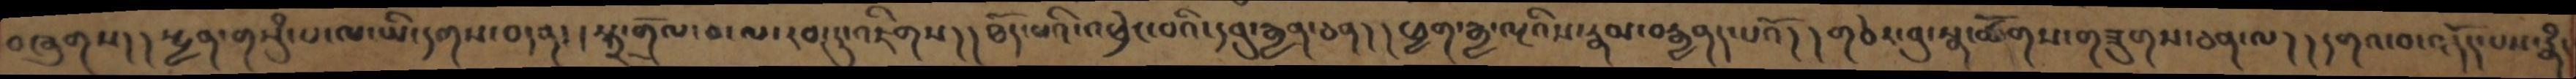བཞུགས། །སྤྱན་གསུཾ་པ་ལ་ཡི་དགས་བདན། །སྐྲ་གྲོལ་བ་ལ་རབ་ཏུ་འཇིགས།། ཐོད་པའི་འཕྲེང་བའི་དབུ་རྒྱན་ཅན། ། ཕྱག་རྒྱ་ལྔའིས་རྣམ་བརྒྱནད་པའོ། ། གཅེར་བུ་སྣ་ཚོགས་གཟུགས་ཅན་ལ། །དགའ་བ་འདོད་པས་རྣཾ་
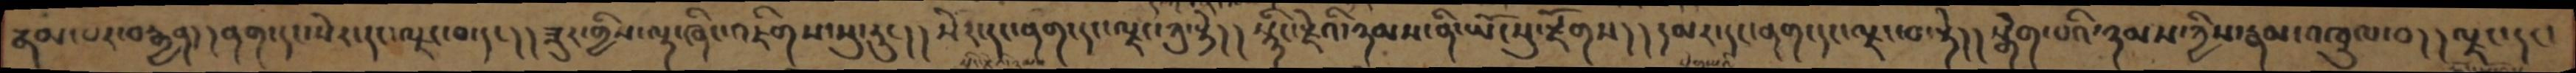རྣམ་པར་བརྒྱན། །ནག་དང་སེར་དང་ལྗང་བ་དང། །ཟུར་གྱིས་ལྟ་ཞིང་འཇིགས་སུ་རུང། །སེར་དང་ནག་དང་ལྗང་ཀུ་སྟེ། །སྙིང་རྗེའི་ཉམས་ནི་ཡོངསུ་རྫོགས། །དམར་དང་ནག་དང་ལྗང་བ་སྟེ། །སྒེག་པའི་ཉམས་ཀྱིས་རྣམ་འཁྲུལ་བ། །ལྗང་དང་
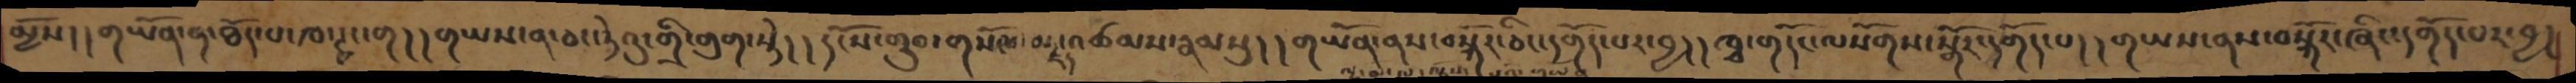མྱོས། །གཡོན་ན་ཐོད་པ་ཁ་ཊྭང་ག། །གཡས་ན་ཅང་ཏེའུ་གྲི་གུག་སྟེ། །དངོས་གྲུབ་གསོལ་མཛད་འཚམས་རྣམསུ། །གཡོན་ནས་བསྐོར་ཅིང་དགོད་པར་བྱ། །ཁྭ་གདོང་ལསོགས་སྒོར་དགོད་པ། །གཡས་ནས་བསྐོར་ཞིང་དགོད་པར་བྱ།
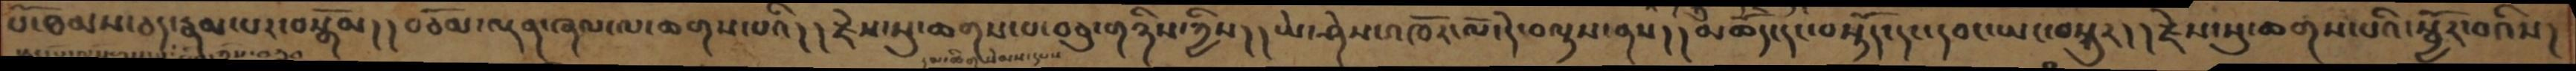པོ་ཐམས་ཅད་རྣམ་པར་བསྒོམ། །བཅོམ་ལྡན་ཞལ་ལ་ཆགས་པའི། །རྗེས་སུ་ཆགས་པ་བཅུ་གཉིས་ཀྱིས། །ཡེ་ཤེས་འཁོར་ལོ་དེ་བལྟས་ནས། །མཆོད་དང་བསྡོད་དང་དབང་ཡང་བསྐུར། །རྗེས་སུ་ཆགས་པའི་སྦྱོར་བའིས།
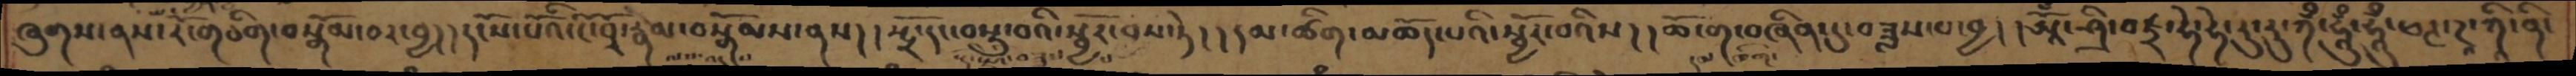ཞུགས་ནས་རོ་གཅིག་བསྒོམ་བར་བྱ། །དངོས་པོའི་ངོ་བོར་རྣམ་བསྒོམས་ནས། །སྤྲོ་དང་བསྡུ་བའི་སྦྱོར་བས་ཏེ། །དམ་ཚིག་མཆོད་པའི་སྦྱོར་བའིས། །ཆོ་ག་བཞིན་དུ་བཟླས་པ་བྱ། །ཨཱོཾ་ཤྲི་བཛྲ་ཧེ་ཧེ་རུ་རུ་ཀྃ་ཧཱུྃ་ཧཱུྃ་ཕཊ་ཌཱ་ཀཱི་ནི་
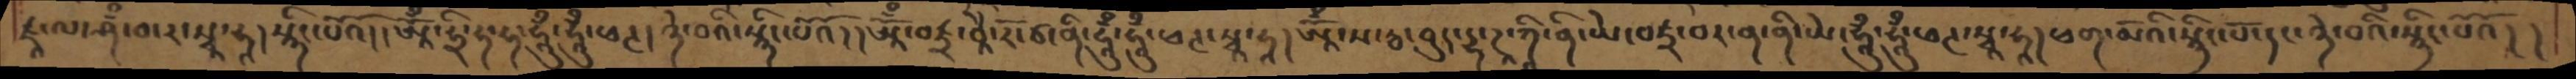ཛཱ་ལ་ཤྃ་བ་ར་སྭཱ་ཧཱ།སྙིང་པོའོ། །ཨཱོཾ་ཧྲི་ཧ་ཧ་ཧཱུྃ་ཧཱུྃ་ཕཊ། ཉེ་བའི་སྙིང་པོའོ། །ཨཱོཾ་བཛྲབཱཻ་རོ་ཙ་ནི་ཧཱུྃ་ཧཱུྃ་ཕཊ་སྭཱ་ཧཱ།ཨཱོཾ་ས་རྦ་བུད་དྷ་ཌཱ་ཀི་ནི་ཡེ་བཛྲ་བར་ན་ནི་ཡེ་ཧཱུྃ་ཧཱུྃ་ཕཊ་སྭཱ་ཧཱ། ཕག་མོའི་སྙིང་པོ་དང་ཉེ་བའི་སྙིང་པའོ། །
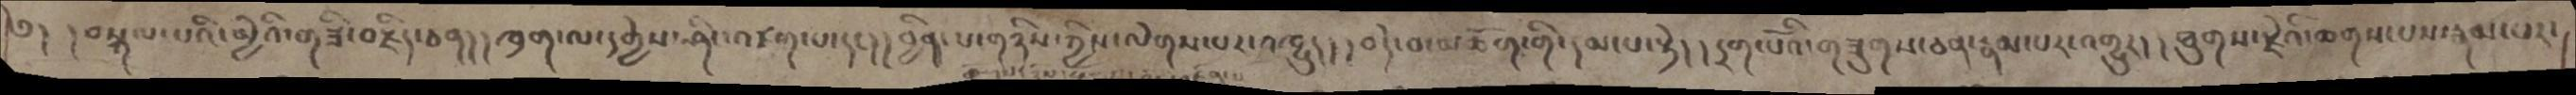༄། །བསྐལ་པའི་མྱེའི་གཟི་བརྗིད་ཅན། །ཁྲག་ལ་དགྱེས་ཤིང་འཛག་པ་དང། །བྱིན་པ་གཉིས་ཀྱིས་ལེགས་པར་འཁྱུད། །བདེ་བ་མཆོག་གི་དམ་པ་སྟེ། །དྲག་པོའི་གཟུགས་ཅན་རྣམ་པར་འགྱུར། །ཐུགས་རྗེའི་ཆགས་པས་རྣམ་པར་
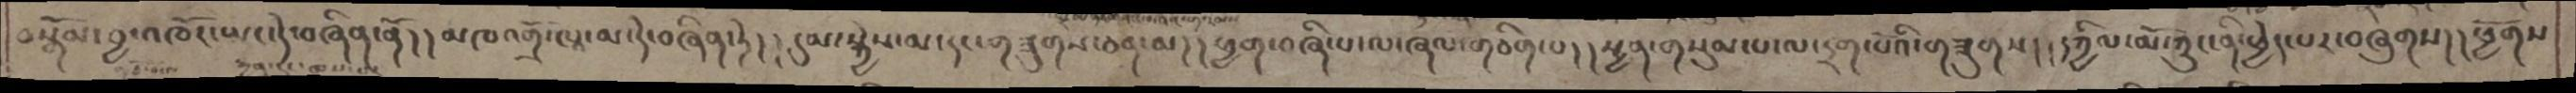བསྒོམ་བྱ་འཁོར་ཡང་དེ་བཞིན་ནོ། །མཁའགྲོ་ལཱ་མ་དེ་བཞིན་ཏེ། །དུམ་སྐྱེས་མ་དང་གཟུགས་ཅན་མ། །ཕྱག་བཞི་པ་ལ་ཞལ་གཅིག་པ། །སྦྱན་གསུམ་པ་ལ་དྲག་པོའི་གཟུགས། །དཀྱིལ་མོ་ཀྲུང་ནི་ཕྱེད་པར་བཞུགས། །ཕྱོགས
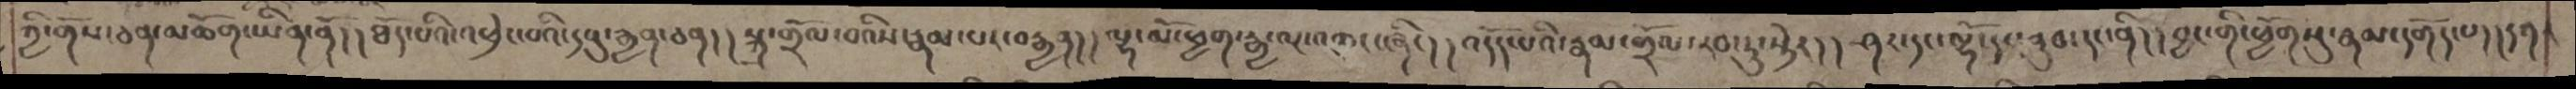ཀྱི་གོས་ཅན་མཆོག་ཡིན་ནོ། །ཐོད་པའི་འཕྲེང་བའི་དབུ་རྒྱན་ཅན། །སྐྲ་གྲོལ་བའིས་རྣམ་པར་བརྒྱན། །ལྷ་མོ་ཕྱག་རྒྱ་ལྔ་འགྱུར་ཞིང། །འདོད་པའི་རྣམ་གྲོལ་རབ་ཏུ་སྟེར། །ཤར་དང་ལྷོ་དང་ནུབ་དང་ནི། །བྱང་གི་ཕྱོགསུ་རྣམ་དགོད་པ།།༨༡
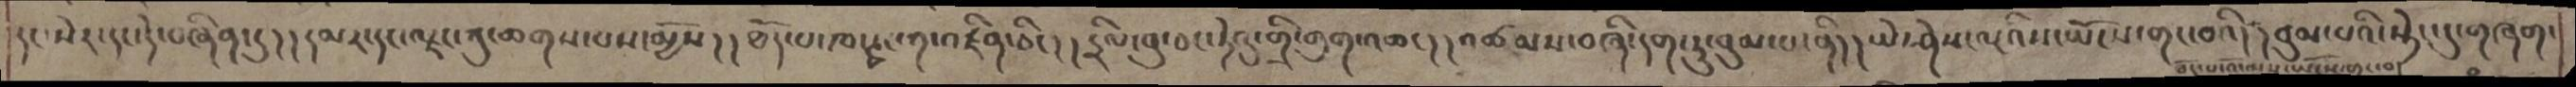དང་སེར་དང་དེ་བཞིན་དུ། །དམར་དང་ལྗང་ཀུ་ཆགས་པས་མྱོས། །ཐོད་པ་ཁ་ཊྭང་ཀ་འཛིན་ཅིང། །དྲིལ་བུ་ཅང་ཏེའུ་གྲི་གུག་འཆང། །འཚམས་བཞི་དག་ཏུ་བུམ་པ་ནི། །ཡེ་ཤེས་ལྔའིས་ཡོངས་གང་བའི། །བུམ་པའི་སྟེང་དུ་གཞག་
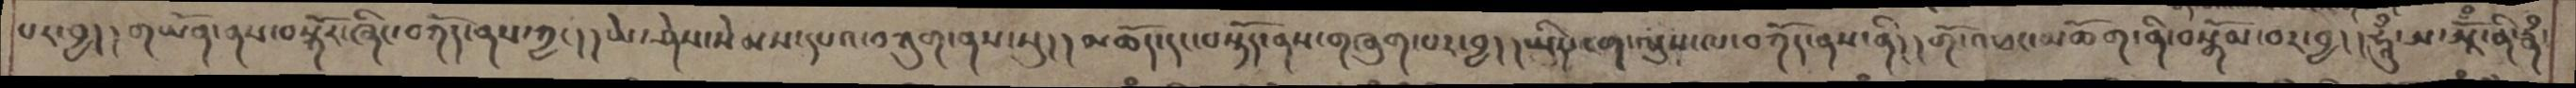པར་བྱ། །གཡོན་ནས་བསྐོར་ཞིང་བཀོད་ནས་ཀྱང།  །ཡེ་ཤེས་སེམས་དཔའ་བཀུག་ནས་སུ། །མཆོད་དང་བསྟོད་ནས་གཞུག་པར་བྱ། །ཡིད་ངག་ལུས་ལ་བཀོད་ནས་ནི། །གོ་འཕང་མཆོག་ནི་བསྒོམ་བར་བྱ། །ཧཱུྃ་ཨ་ཨཱོཾ་ནི་རྣཾ་
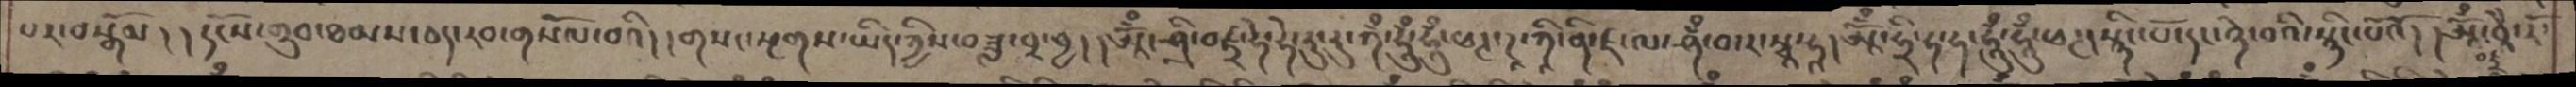པར་བསྒོམ། །དངོས་གྲུབ་ཐམས་ཅད་རབ་གསོལ་བའི། །གསང་སྔགས་ཡིད་ཀྱིས་བཟླ་བར་བྱ། །ཨཱོྃ་ཤྲི་བཛྲ་ཧེ་ཧེ་རུ་རུ་ཀྃ་ཧཱུྃ་ཧཱུྃ་ཕཊ་ཌཱ་ཀཱི་ནི་ཛ་ལ་ཤྃ་བ་ར་སྭཱ་ཧཱ། ཨཱོྃ་ཧྲི་ཧ་ཧ་ཧཱུྃ་ཧཱུྃ་ཕཊ། སྙིང་པོ་དང་ཉེ་བའི་སྙིང་པོའོ། །ཨཱོྃ་བཱཻ་རོ་
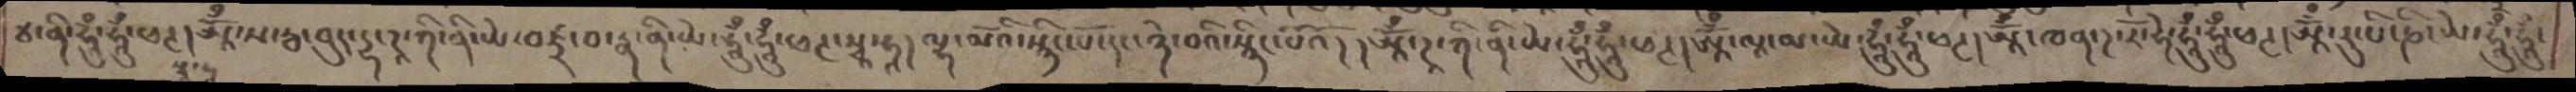ཙ་ནི་ཧཱུྃ་ཧཱུྃ་ཕཊ་སྭཱ་ཧཱ། ཨཱོྃ་ས་རྦ་བུད་དྷ་ཌཱ་ཀི་ནི་ཡེ་བཛྲ་བ་རྣ་ནི་ཡེ་ཧཱུྃ་ཧཱུྃ་ཕཊ་སྭཱ་ཧཱ། ལྷ་མོའི་སྙིང་པོ་དང་ཉེ་བའི་སྙིང་པོའོ། །ཨཱོྃ་ཌཱ་ཀི་ནི་ཡེ་ཧཱུྃ་ཧཱུྃ་ཕཊ། ཨཱོྃ་ལཱ་མ་ཡེ་ཧཱུྃ་ཧཱུྃ་ཕཊ། ཨཱོྃ་ཁན་ཌ་རོ་ཧེ་ཧཱུྃ་ཧཱུྃ་ཕཊ། ཨཱོྃ་རུ་པི་ཎི་ཡེ་ཧཱུྃ་ཧཱུྃ་
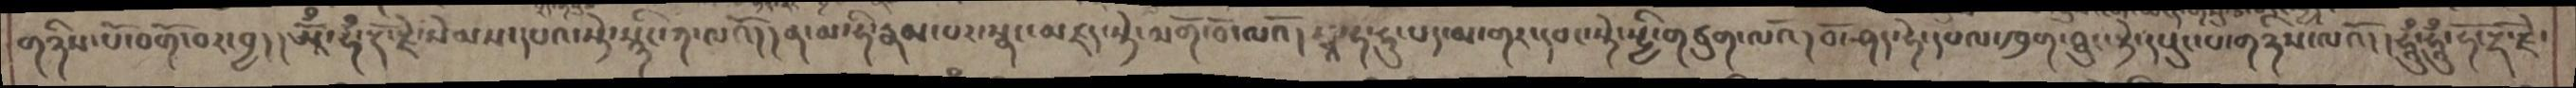གཉིས་པོ་བགོ་བར་བྱ། །ཨཱོྃ་ཧྃ་རྡོ་རྗེ་སེམས་དཔའ་སྟེ་སྙིང་ཀ་ལའོ། །ན་མ་ཧི་རྣམ་པར་སྣང་མཛད་སྟེ་མགོ་བོ་ལའོ། སྭཱ་ཧ་ཧུ་པད་མ་གར་དབང་སྟེ་སྤྱི་གཙུག་ལའོ། བོ་ཤད་ཧེ་དཔལ་ཁྲག་ཐུང་སྟེ་དཔུང་པ་གཉིས་ལའོ། །ཧཱུྃ་ཧཱུྃ་ཧོ་རྡོ་རྗེ་
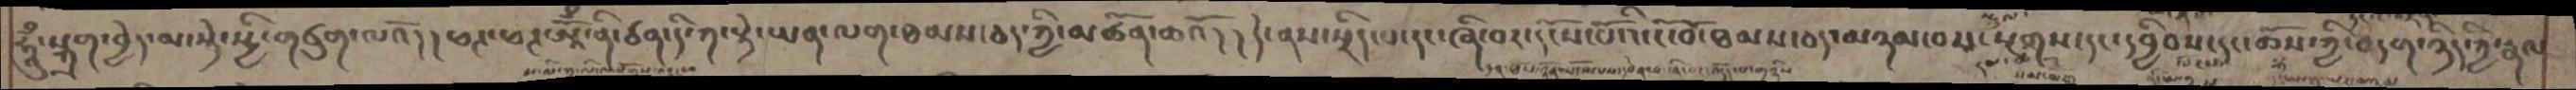ཧཱུྃ་སྐྲག་བྱེད་མ་སྟེ་སྤྱི་གཙུག་ལའོ། །ཕཊ་ཕཊ་ཨཱོྃ་ནི་ཙན་དི་ཀ་སྟེ་ཡན་ལག་ཐམས་ཅད་ཀྱི་མཚོན་ཆའོ། །དེ་ནས་སྲིད་པ་དང་ཞི་བར་དངོས་པོའི་ངོ་བོ་ཐམས་ཅད་མཉམ་པར་སྔགས་དང་དབྱིབས་དང་ཆོས་ཀྱི་བདག་ཉིད་ཀྱི་རྣལ
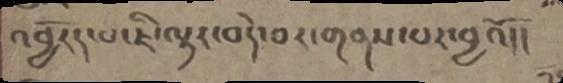འབྱོརད་པ་ཇི་ལྟར་བདེ་བར་གནས་པར་བྱའོ། །
